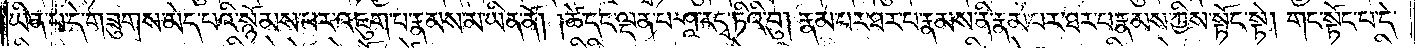ཡིན་པ་དེ་གཟུགས་མེད་པའི་སྙོམས་པར་འཇུག་པ་རྣམས་མ་ཡིན་ནོ། །ཚེ་དང་ལྡན་པ་ཤཱ་ར་དྭ་ཏིའི་བུ། རྣམ་པར་ཐར་པ་རྣམས་ནི་རྣམ་པར་ཐར་པ་རྣམས་ཀྱིས་སྟོང་སྟེ། གང་སྟོང་པ་དེ་
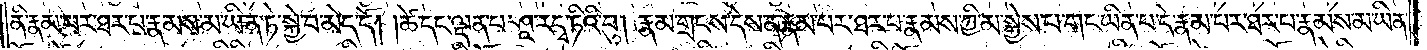ནི་རྣམ་པར་ཐར་པ་རྣམས་མ་ཡིན་ཏེ་སྐྱེ་བ་མེད་དོ། །ཚེ་དང་ལྡན་པ་ཤཱ་ར་དྭ་ཏིའི་བུ། རྣམ་གྲངས་དེས་ན་རྣམ་པར་ཐར་པ་རྣམས་ཀྱི་མ་སྐྱེས་པ་གང་ཡིན་པ་དེ་རྣམ་པར་ཐར་པ་རྣམས་མ་ཡིན་
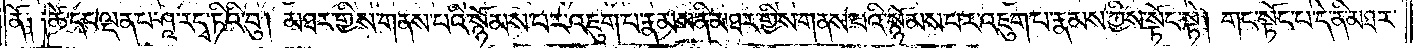ནོ༏ ༏ཚེ་དང་ལྡན་པ་ཤཱ་ར་དྭ་ཏིའི་བུ། མཐར་གྱིས་གནས་པའི་སྙོམས་པར་འཇུག་པ་རྣམས་ནི་མཐར་གྱིས་གནས་པའི་སྙོམས་པར་འཇུག་པ་རྣམས་ཀྱིས་སྟོང་སྟེ། གང་སྟོང་པ་དེ་ནི་མཐར་
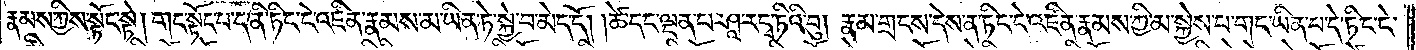རྣམས་ཀྱིས་སྟོང་སྟེ། གང་སྟོང་པ་ད་ནི་ཏིང་ངེ་འཛིན་རྣམས་མ་ཡིན་ཏེ་སྐྱེ་བ་མེད་དོ། །ཚེ་དང་ལྡན་པ་ཤཱ་ར་དྭ་ཏིའི་བུ། རྣམ་གྲངས་དེས་ན་ཏིང་ངེ་འཛིན་རྣམས་ཀྱི་མ་སྐྱེས་པ་གང་ཡིན་པ་དེ་ཏིང་ངེ་
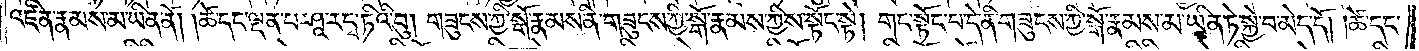འཛིན་རྣམས་མ་ཡིན་ནོ། །ཚེ་དང་ལྡན་པ་ཤཱ་ར་དྭ་ཏིའི་བུ། གཟུངས་ཀྱི་སྒོ་རྣམས་ནི་གཟུངས་ཀྱི་སྒོ་རྣམས་ཀྱིས་སྟོང་སྟེ། གང་སྟོང་པ་དེ་ནི་གཟུངས་ཀྱི་སྒོ་རྣམས་མ་ཡིན་ཏེ་སྐྱེ་བ་མེད་དོ། །ཚེ་དང་
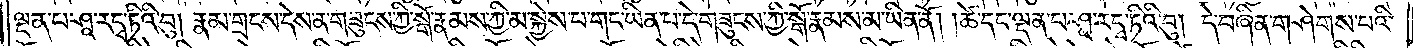ལྡན་པ་ཤཱ་ར་དྭ་ཏིའི་བུ། རྣམ་གྲངས་དེས་ན་གཟུངས་ཀྱི་སྒོ་རྣམས་ཀྱི་མ་སྐྱེས་པ་གང་ཡིན་པ་དེ་གཟུངས་ཀྱི་སྒོ་རྣམས་མ་ཡིན་ནོ། །ཚེ་དང་ལྡན་པ་ཤཱ་ར་དྭ་ཏིའི་བུ། དེ་བཞིན་གཤེགས་པའི་
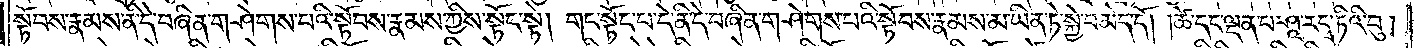སྟོབས་རྣམས་ནི་དེ་བཞིན་གཤེགས་པའི་སྟོབས་རྣམས་ཀྱིས་སྟོང་སྟེ། གང་སྟོང་པ་དེ་ནི་དེ་བཞིན་གཤེགས་པའི་སྟོབས་རྣམས་མ་ཡིན་ཏེ་སྐྱེ་བ་མེད་དོ། །ཚེ་དང་ལྡན་པ་ཤཱ་ར་དྭ་ཏིའི་བུ།
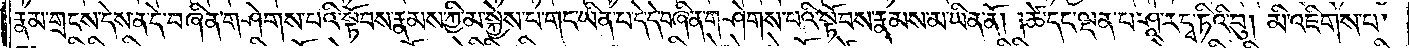རྣམ་གྲངས་དེས་ན་དེ་བཞིན་གཤེགས་པའི་སྟོབས་རྣམས་ཀྱི་མ་སྐྱེས་པ་གང་ཡིན་པ་དེ་དེ་བཞིན་གཤེགས་པའི་སྟོབས་རྣམས་མ་ཡིན་ནོ། །ཚེ་དང་ལྡན་པ་ཤཱ་ར་དྭ་ཏིའི་བུ། མི་འཇིགས་པ་
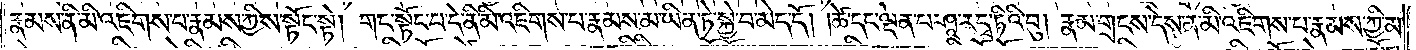རྣམས་ནི་མི་འཇིགས་པ་རྣམས་ཀྱིས་སྟོང་སྟེ། གང་སྟོང་པ་དེ་ནི་མི་འཇིགས་པ་རྣམས་མ་ཡིན་ཏེ་སྐྱེ་བ་མེད་དོ། །ཚེ་དང་ལྡན་པ་ཤཱ་ར་དྭ་ཏིའི་བུ། རྣམ་གྲངས་དེས་ན་མི་འཇིགས་པ་རྣམས་ཀྱི་མ་
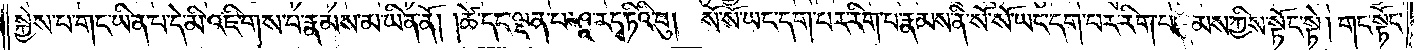སྐྱེས་པ་གང་ཡིན་པ་དེ་མི་འཇིགས་པ་རྣམས་མ་ཡིན་ནོ། །ཚེ་དང་ལྡན་པ་ཤཱ་ར་དྭ་ཏིའི་བུ། སོ་སོ་ཡང་དག་པར་རིག་པ་རྣམས་ནི་སོ་སོ་ཡང་དག་པར་རིག་པ་རྣམས་ཀྱིས་སྟོང་སྟེ། གང་སྟོང་
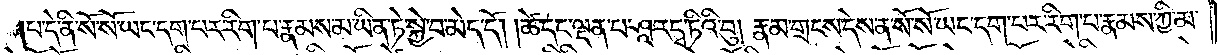པ་དེ་ནི་སོ་སོ་ཡང་དག་པར་རིག་པ་རྣམས་མ་ཡིན་ཏེ་སྐྱེ་བ་མེད་དོ། །ཚེ་དང་ལྡན་པ་ཤཱ་ར་དྭ་ཏིའི་བུ། རྣམ་གྲངས་དེས་ན་སོ་སོ་ཡང་དག་པར་རིག་པ་རྣམས་ཀྱི་མ་
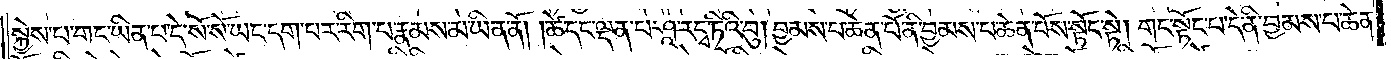སྐྱེས་པ་གང་ཡིན་པ་དེ་སོ་སོ་ཡང་དག་པར་རིག་པ་རྣམས་མ་ཡིན་ནོ། །ཚེ་དང་ལྡན་པ་ཤཱ་ར་དྭ་ཏིའི་བུ། བྱམས་པ་ཆེན་པོ་ནི་བྱམས་པ་ཆེན་པོས་སྟོང་སྟེ། གང་སྟོང་པ་དེ་ནི་བྱམས་པ་ཆེན་
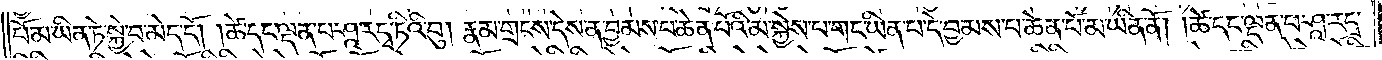པོ་མ་ཡིན་ཏེ་སྐྱེ་བ་མེད་དོ། །ཚེ་དང་ལྡན་པ་ཤཱ་ར་དྭ་ཏིའི་བུ། རྣམ་གྲངས་དེས་ན་བྱམས་པ་ཆེན་པོའི་མ་སྐྱེས་པ་གང་ཡིན་པ་དེ་བྱམས་པ་ཆེན་པོ་མ་ཡིན་ནོ། །ཚེ་དང་ལྡན་པ་ཤཱ་ར་དྭ་
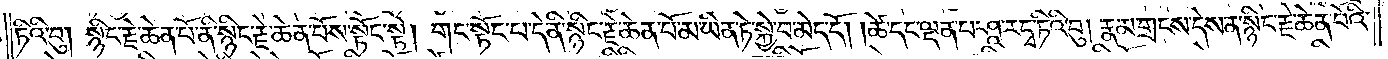ཏིའི་བུ། སྙིང་རྗེ་ཆེན་པོ་ནི་སྙིང་རྗེ་ཆེན་པོས་སྟོང་སྟེ། གང་སྟོང་པ་དེ་ནི་སྙིང་རྗེ་ཆེན་པོ་མ་ཡིན་ཏེ་སྐྱེ་བ་མེད་དོ། །ཚེ་དང་ལྡན་པ་ཤཱ་ར་དྭ་ཏིའི་བུ། རྣམ་གྲངས་དེས་ན་སྙིང་རྗེ་ཆེན་པོའི་
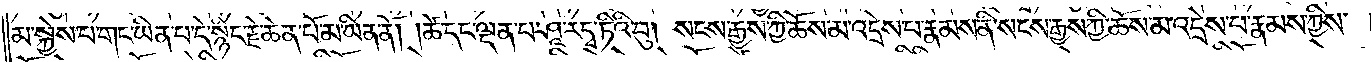མ་སྐྱེས་པ་གང་ཡིན་པ་དེ་སྙིང་རྗེ་ཆེན་པོ་མ་ཡིན་ནོ། །ཚེ་དང་ལྡན་པ་ཤཱ་ར་དྭ་ཏིའི་བུ། སངས་རྒྱས་ཀྱི་ཆོས་མ་འདྲེས་པ་རྣམས་ནི་སངས་རྒྱས་ཀྱི་ཆོས་མ་འདྲེས་པ་རྣམས་ཀྱིས་
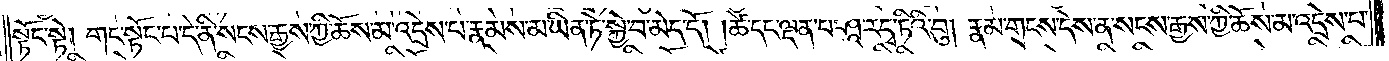སྟོང་སྟེ། གང་སྟོང་པ་དེ་ནི་སངས་རྒྱས་ཀྱི་ཆོས་མ་འདྲེས་པ་རྣམས་མ་ཡིན་ཏེ་སྐྱེ་བ་མེད་དོ། །ཚེ་དང་ལྡན་པ་ཤཱ་ར་དྭ་ཏིའི་བུ། རྣམ་གྲངས་དེས་ན་སངས་རྒྱས་ཀྱི་ཆོས་མ་འདྲེས་པ་
